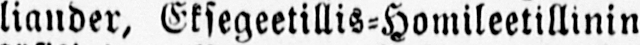liander, Eksegeetillis-Homileetillinin
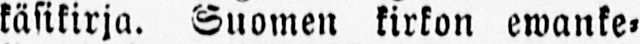käsikirja. Suomen kirkon ewanke-
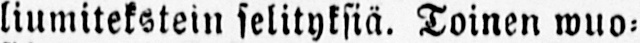liumitekstein selityksiä. Toinen wuo-
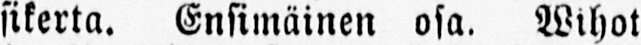sikerta. Ensimäinen osa. Wihot
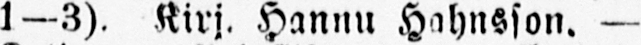1—3). Kirj, Hannu Hahnsson. —
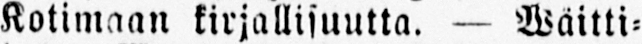Kotimaan kirjallisuutta. — Wäitti-
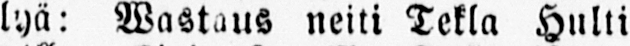lyä: Wastaus neiti Tekla Hulti-
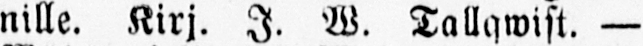nille. Kirj. J. W. Tallqwist. —
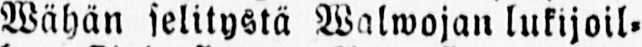Wähän selitystä Walwojan lukijoil-
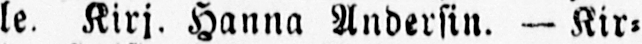le. Kirj. Hanna Andersin. — Kir-
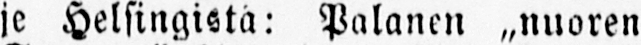je Helsingistä: Palanen „nuoren
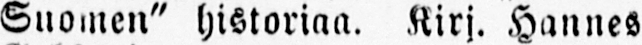Suomen" historiaa. Kirj. Hannes
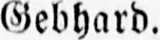Gebhard.
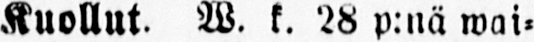Kuollut. W. k. 28 p:nä wai-
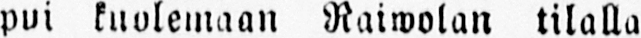pui kuolemaan Raiwolan tilalla
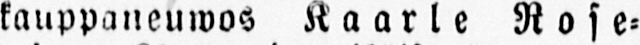kauppaneuwos Kaarle Rose-
